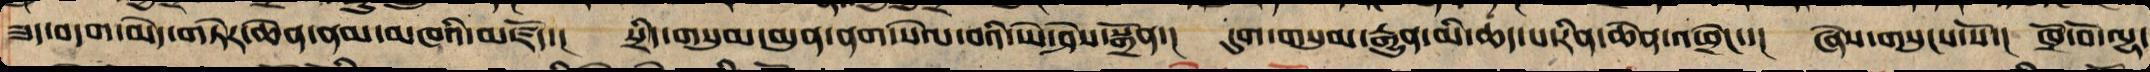ཟད་བདག་མེད་གཏེར་ཆེན་ནམ་མཁའི་མཛོད་། སྲིད་གསུམ་མུན་ནག་སེལ་བའི་ཡེ་ཤེས་སྒྲོན་། དུས་གསུམ་རྒྱུན་མི་འཆད་པ་རིན་ཆེན་འཕྲེང་་། ཞེས་གསུངས་སོ་། ཁྲོ་བོ་ལྷ་
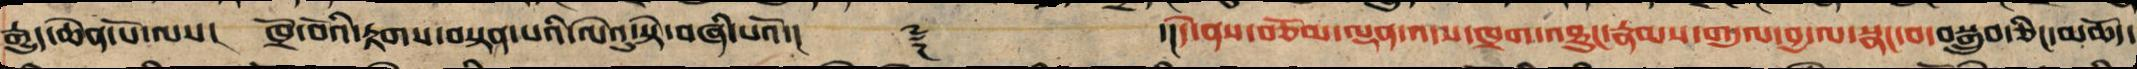རྒྱུད་ཆེན་པོ་ལས་། ཁྲོ་བོའི་རྟགས་བསྟན་པའི་ལེའུ་སྟེ་བཞི་པའོ་།།   ༈    ་།དེ་ནས་བཅོམ་ལྡན་འདས་ཁྲག་འཐུང་རྣམས་གདུལ་བྱ་ལ་སྣང་བ་བསྒྲུབ་ཅིང་མཆོད་
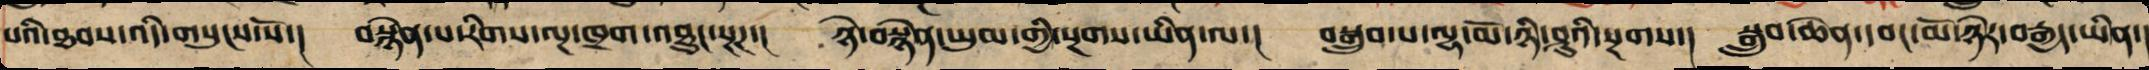པའི་ཐབས་འདི་གསུངས་སོ་། བསྙེན་པ་རིགས་ལྔ་ཁྲག་འཐུང་སྔཌ་། ཉེ་བསྙེན་ཡུམ་གྱི་སྔགས་ཡིན་ལ་། སྒྲུབ་པ་ལྷ་མོ་ཉི་ཤུའི་སྔགས་། སྒྲུབ་ཆེན་དབང་མོ་ཉེར་བརྒྱད་ཡིན་།
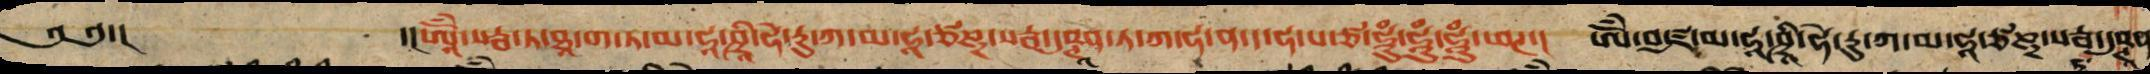༄༅་། ་།ཨཱོཾ་སརྦ་ཏ་ཐཱ་ག་ཏ་མ་ཧཱ་ཤྲཱཱི་ཧེ་རུ་ཀ་མ་ཧཱ་ཙཎྜ་སརྦ་དུཥྚཱནྟ་ཀ་ཧ་ན་ད་ཧ་པ་ཙ་ཧཱུཾ་ཧཱུཾ་ཧཱུཾ་ཕཊ་། ཨོཾ་བཛྲ་མ་ཧཱ་ཤྲཱཱི་ཧེ་རུ་ཀ་མ་ཧཱ་ཙཎྜ་སརྦ་དུཥྚཱན
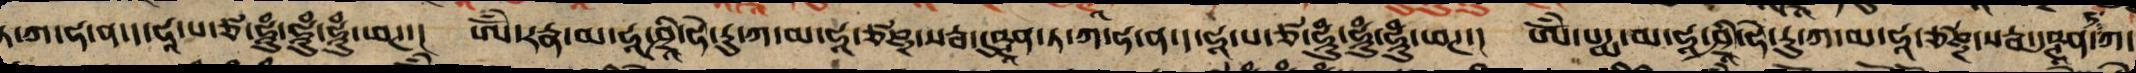ཏ་ཀ་ཧ་ན་ད་ཧ་པ་ཙ་ཧཱུཾ་ཧཱུཾ་ཧཱུཾ་ཕཊ། ཨོཾ་རཏྣ་མ་ཧཱ་ཤྲཱི་ཧེ་རུ་ཀ་མ་ཧཱ་ཙཎྜ་སརྦ་དུཥྚཱན་ཏ་ཀ་ཧ་ན་ད་ཧ་པ་ཙ་ཧཱུཾ་ཧཱུཾ་ཧཱུཾ་ཕཊ། ཨོཾ་པདྨ་མ་ཧཱ་ཤྲཱི་ཧེ་རུ་ཀ་མ་ཧཱ་ཙཎྜ་སརྦ་དུཥྚཱན་ཀ་
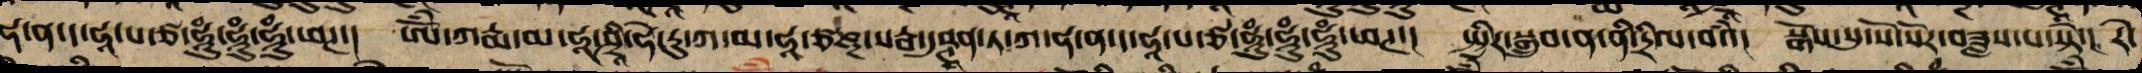ཧ་ན་ད་ཧ་པ་ཙ་ཧཱུཾ་ཧཱུཾ་ཧཱུཾ་ཕཊ་། ཨོཾ་ཀརྨ་མ་ཧཱ་ཤྲཱི་ཧེ་རུ་ཀ་མ་ཧཱ་ཙཎྜ་སརྦ་དུཥྚཱན་ཏ་ཀ་ཧ་ན་ད་ཧ་པ་ཙ་ཧཱུཾ་ཧཱུཾ་ཧཱུཾ་ཕཊ་། སྤྱིར་བསྒྲུབ་ན་ནི་དྲིལ་བའཾ་། སྒོས་སུ་སོ་སོར་བཟླས་པ་སྟེ་། རེ་
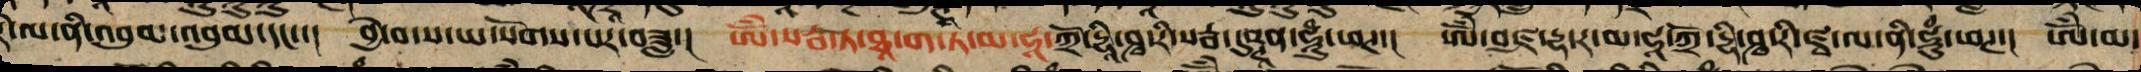རེ་ལ་ནི་འབུམ་འབུམ་དང་་། བྱེ་བ་ས་ཡ་སོགས་པར་བཟླ་། ཨོཾ་སརྦ་ཏ་ཐཱ་ག་ཏ་མ་ཧཱ་ཀྲོ་དྷཱི་ཤྭ་རི་སརྦ་དུཥྚན་ཧཱུཾ་ཕཊ་། ཨོཾ་མ་ཧཱ་བཛྲ་དྷ་ར་མ་ཧཱ་ཀྲོ་དྷཱི་ཤྭ་རི་ཛྭ་ལ་ནི་ཧཱུཾ་ཕཊ་། ཨོཾ་མ་
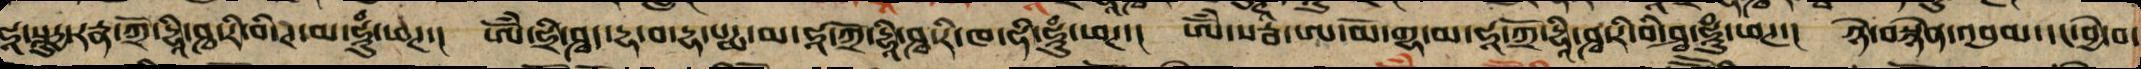ཧཱ་སཱུརྱ་རཏྣ་མ་ཧཱ་ཀྲོ་དྷཱི་ཤྭ་རི་བི་ཊ་མ་ཧཱུཾ་ཕཊ་། ཨོཾ་ཧྲི་ཤྭད་དྷ་བ་དྷ་པདྨ་མ་ཧཱ་ཀྲོ་དྷཱི་ཤྭ་རི་ཁ་ཧི་ཧཱུཾ་ཕཊ་། ཨོཾ་སརྦ་ཨ་མོ་གྷ་མ་ཧཱ་ཀྲོ་དྷཱི་ཤྭ་རི་བི་ཤྭ་ཧཱུཾ་ཕཊ་། ཉེ་བསྙེན་འབུམ་དང་བྱེ་བ་
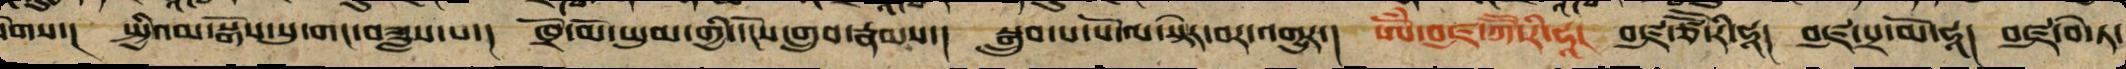སོགས་། སྤྱིའམ་སྒོས་སུ་གང་བཟླས་པ་། ཁྲོ་མོ་ཡུམ་གྱི་དངོས་གྲུབ་རྣམས་། སྒྲུབ་པ་པོ་ལ་སྟེར་བར་འགྱུར་། ཨོཾ་བཛྲ་ཀཽ་རི་ཧཱ། བཛྲ་ཙཽ་རི་ཧཱ། བཛྲ་པྲ་མོ་ཧཱ། བཛྲ་བེ་ཏ་
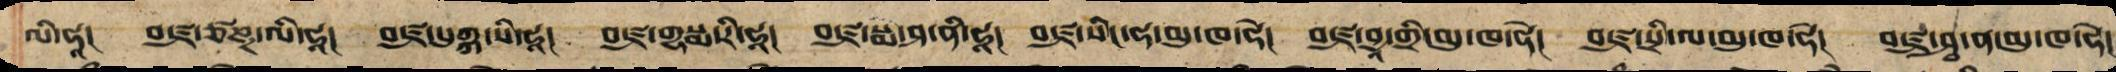ལི་ཧཱ། བཛྲ་ཙཎྜ་ལི་ཧཱ། བཛྲ་པུཀྐ་སི་ཧཱ། བཛྲ་གྷསྨ་རི་ཧཱ། བཛྲ་སྨ་ཤ་ནི་ཧཱ། བཛྲ་སིང་ཧ་མུ་ཁ་ཧེ། བཛྲ་བྱཱ་གྲི་མུ་ཁ་ཧེ། བཛྲ་སྲྀ་ལ་མུ་ཁ་ཧེ། བཛྲ་ཤྭ་ན་མུ་ཁ་ཧེ།
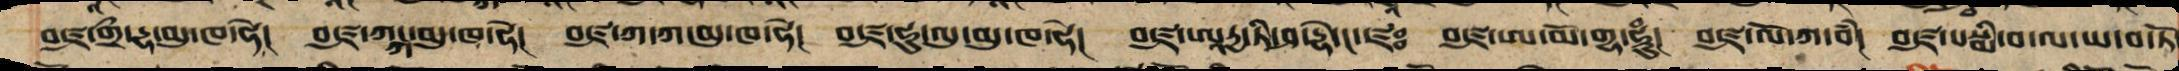བཛྲ་གྲྀ་ཌྷ་མུ་ཁ་ཧེ། བཛྲ་ཀངྐ་མུ་ཁ་ཧེ། བཛྲ་ཀ་ཀ་མུ་ཁ་ཧེ། བཛྲ་ཨུ་ལུ་མུ་ཁ་ཧེ། བཛྲ་ཨཱརྱ་ཏི་ཤ་དྷེ་ང་ཛཿ བཛྲ་ཨ་མོ་གྷ་ཧཱུཾ། བཛྲ་ལོ་ཀ་བཾ། བཛྲ་སསྨི་བ་ལ་ཡ་བ་ཏོ
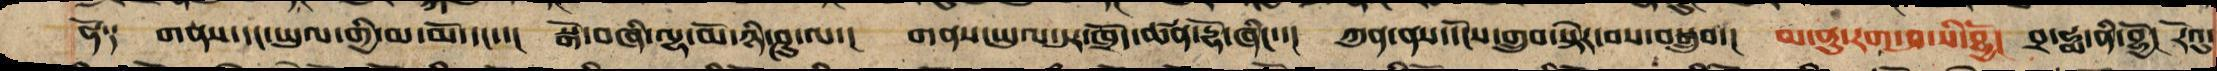ཧོ༑ གནས་དང་ཡུལ་གྱི་མ་མོ་དང་་། སྒོ་བཞི་ལྷ་མོ་ཉི་ཤུ་ལ་། གནས་ཡུལ་དུར་ཁྲོད་ཚན་དྷོ་ཞིང་་། ཀུན་ནས་དངོས་གྲུབ་སྟེར་བས་བསྒྲུབ་། མ་ནུ་རག་ཤ་་སི་བྷྱོ། བྲ་ཧྨ་ནི་བྷྱོ། རོའུ་
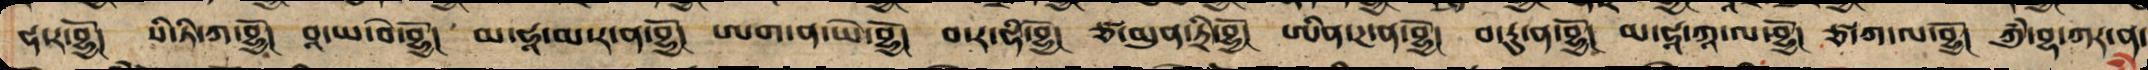ཧ་ར་བྷྱོ། སི་ཏི་ཀ་བྷྱོ། བཱ་ཡ་བེ་བྷྱོ། མ་ཧཱ་མ་ར་ན་བྷྱོ། ཨག་ན་ཡེ་བྷྱོ། བ་ར་ཧི་བྷྱོ། ཙ་མུན་ཏྲི་བྷྱོ། ཨིན་ཌ་ན་བྷྱོ། བ་རུ་ན་བྷྱོ། མ་ཧཱ་ཀཱ་ལ་བྷྱོ། ཙ་ཀ་ལ་བྷྱོ། ཀུཾ་བྷ་ཀ་ན་
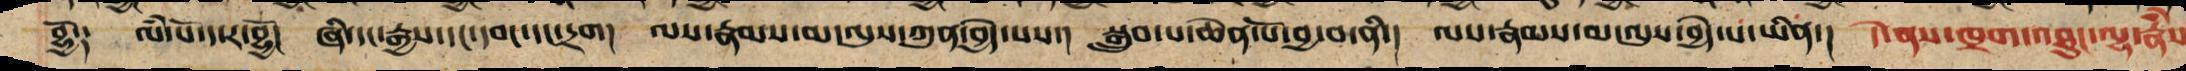བྷྱོ༑ ལཾ་པོ་ད་ར་བྷྱོ། ཞི་དང་རྒྱས་དང་དབང་དང་དྲག། ལས་རྣམས་མ་ལུས་ཀུན་བྱེད་པས་། སྒྲུབ་པ་ཆེན་པོ་བྱ་བ་ནི་། ལས་རྣམས་མ་ལུས་བྱེད་པ་ཡིན་། དེ་ནས་ཁྲག་འཐུང་ལྷ་རྣཾས་
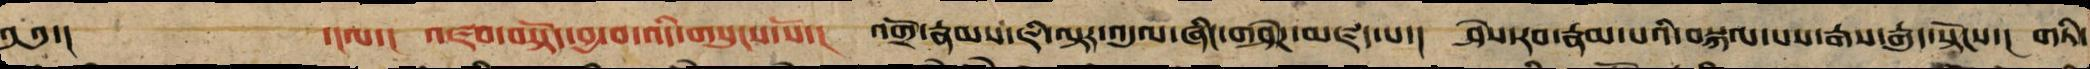༄༅་། ་།ལ་། འཛབ་བསྟོད་བྱ་བ་འདི་གསུངས་སོ་། འགྲོ་རྣམས་ཇི་ལྟར་འདུལ་ཞིང་གཤེཌ་མཛད་པ་། ཤེས་རབ་རྣམ་པའི་བསྐལ་པས་རྒས་རྒུད་སྟོངས་། གཏི་
